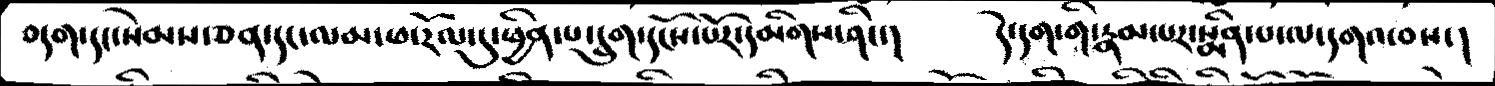བདག་དང་སེམས་ཅན་དང་ལམ་ཕ་རོལ་དུ་ཕྱིན་པ་དྲུག་དངོས་པོར་དམིགས་ཤིང་།    དེ་དག་གི་རྣམ་པར་སྨིན་པ་ལ་དགའ་བས་།
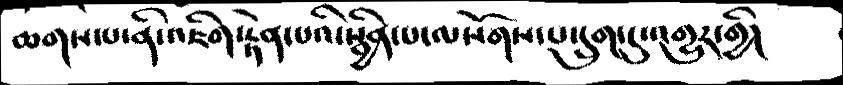ཆགས་པ་ནི་འཇིག་རྟེན་པའི་སྦྱིན་པ་ལསོགས་པ་དྲུག་དུ་འགྱུར་གྱི།
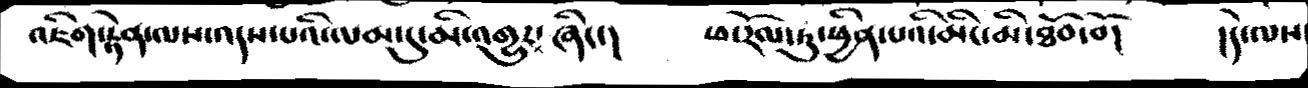འཇིག་རྟེན་ལས་འདས་པའི་ལམ་དུ་མི་འགྱུར་ཞིང་།    ཕ་རོལ་ཏུ་ཕྱིན་པའི་མིང་མི་ཐོབ་བོ།    །དེ་ལས
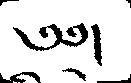༄༅།
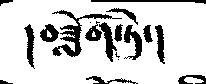།བཟློག་ཏེ་།
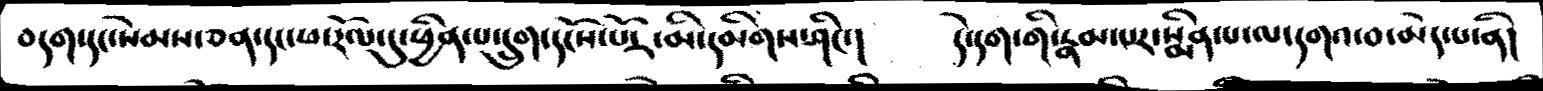བདག་དང་སེམས་ཅན་དང་ཕ་རོལ་དུ་ཕྱིན་པ་དྲུག་དངོས་པོར་མི་དམིགས་ཤིང་།    དེ་དག་གི་རྣམ་པར་སྨིན་པ་ལ་དགའ་བ་མེད་པ་ནི།
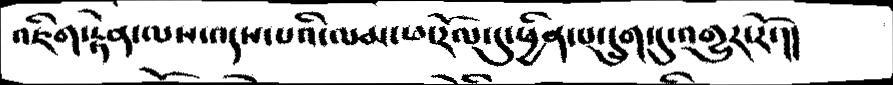འཇིག་རྟེན་ལས་འདས་པའི་ལམ་ཕ་རོལ་དུ་ཕྱིན་པ་དྲུག་དུ་འགྱུར་རོ་།།
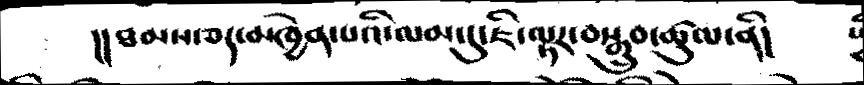།།ཐམས་ཅད་མཁྱེན་པའི་ལམ་དུ་ཇི་ལྟར་བསྒྲུབ་ཚུལ་ནི།
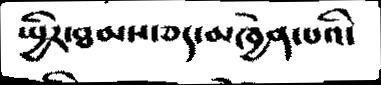སྤྱིར་ཐམས་ཅད་མཁྱེན་པའི་
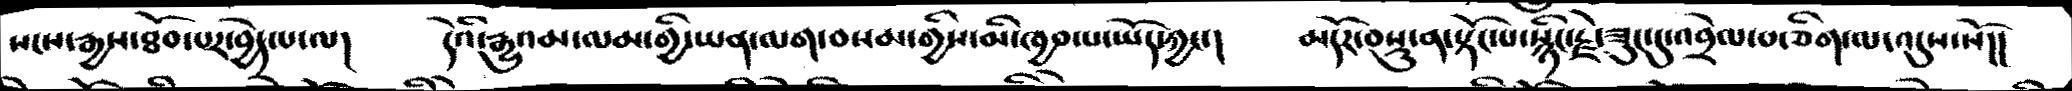སངས་རྒྱས་ཐོབ་པར་བྱེད་པ་ལ།   དེའི་རྒྱུའམ་ལམ་གྱི་ཡན་ལག་བསམ་གྱིས་མི་ཁྱབ་པ་ཡོད་ཀྱང་།   མདོར་བསྡུ་ན་སྟོང་པ་སྙིང་རྗེ་ཟུང་དུ་འབྲེལ་བ་ཅིག་ལ་འདུས་སོ།།
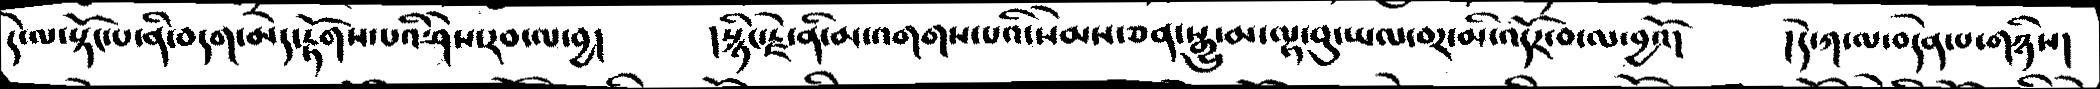དེ་ལ་སྟོང་པ་ནི་བདག་མེད་རྟོགས་པའི་ཤེས་རབ་ལ་བྱ།   །སྙིང་རྗེ་ནི་མ་འགགས་པའི་སེམས་ཅན་སྒྱུ་མ་ལྟ་བུ་ཡལ་བར་མི་འདོར་བ་ལ་བྱའོ།   །དེ་ཀ་ལ་བདེན་པ་གཉིས།
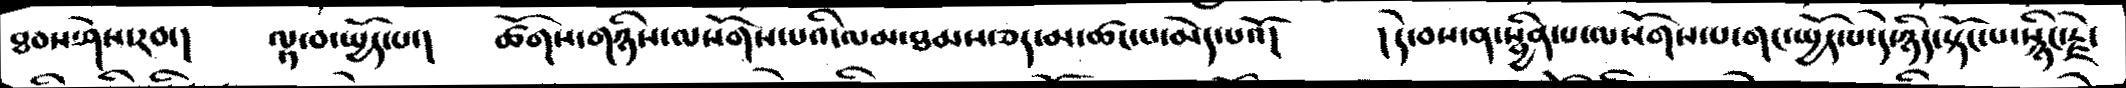ཐབས་ཤེས་རབ་།   ལྟ་བ་སྤྱོད་པ་།   ཚོགས་གཉིས་ལསོགས་པའི་ལམ་ཐམས་ཅད་མ་ཚང་པ་མེད་པའོ།    །དེ་བས་ན་སྦྱིན་པ་ལསོགས་པ་གང་སྤྱོད་པ་དེ་ཉིད་སྟོང་པ་སྙིང་རྗེ་
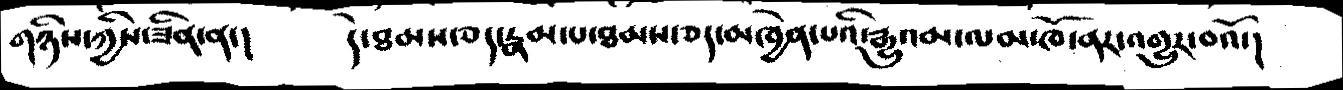གཉིས་ཀྱིས་ཟིན་ན་།   དེ་ཐམས་ཅད་རྣམ་པ་ཐམས་ཅད་མཁྱེན་པའི་རྒྱུའམ་ལམ་ཁོ་ནར་འགྱུར་བའོ་།
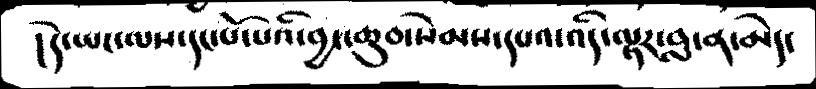།དེ་ཡང་ལས་དང་པོ་པའི་བྱང་ཆུབ་སེམས་དཔའ་འདི་ལྟར་བླ་ན་མེད་
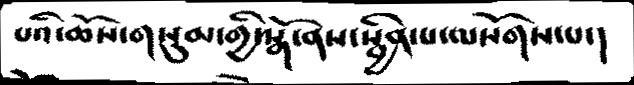པའི་ཆོས་གསུམ་གྱི་སྒོ་ནས་སྦྱིན་པ་ལསོགས་པ་།
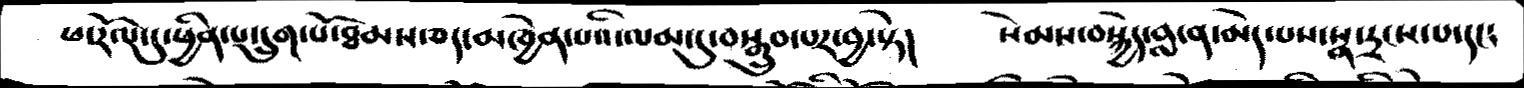ཕ་རོལ་ཕྱིན་པ་དྲུག་པོ་ཐམས་ཅད་མཁྱེན་པའི་ལམ་དུ་བསྒྲུབ་པར་བྱ་སྟེ།   སེམས་བསྐྱེད་བླ་ན་མེད་པས་སྣ་དྲངས་པ་དང༴
